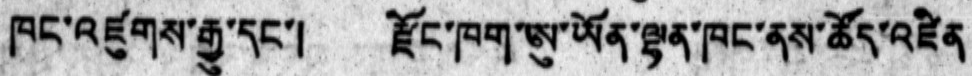ཁང་འཛུགས་རྒྱུ་དང་། རྫོང་ཁག་ཨུ་ཡོན་ལྷན་ཁང་ནས་ཚོད་འཛིན
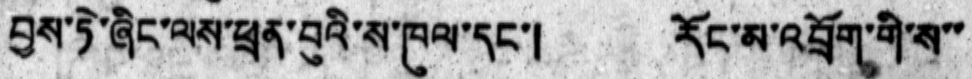བྱས་ཏེ་ཞིང་ལས་ཕྲན་བུའི་ས་ཁུལ་དང་། རོང་མ་འབྲོག་གི་ས་་
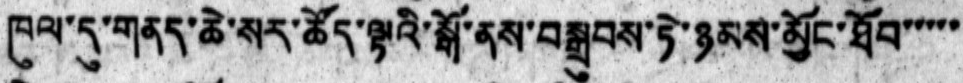ཁུལ་དུ་གནད་ཆེ་སར་ཚོད་ལྟའི་སྒོ་ནས་བསྒྲུབས་ཏེ་ཉམས་མྱོང་ཐོབ་་་་་
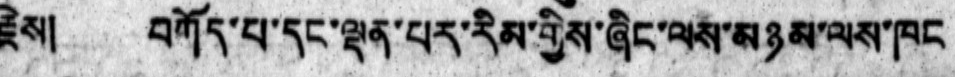རྗེས། བཀོད་པ་དང་ལྡན་པར་རིམ་གྱིས་ཞིང་ལས་མཉམ་ལས་ཁང
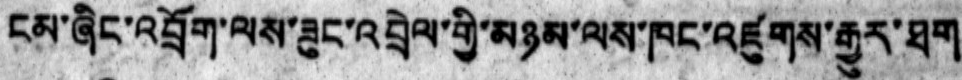ངམ་ཞིང་འབྲོག་ལས་ཟུང་འབྲེལ་གྱི་མཉམ་ལས་ཁང་འཛུགས་རྒྱུར་ཐག
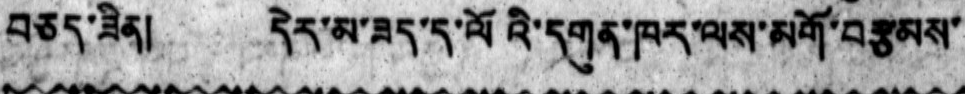བཅད་ཟིན།   དེར་མ་ཟད་ད་ལོའི་དགུན་ཁར་ལས་མགོ་བརྩམས་
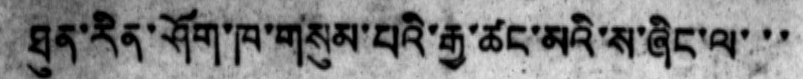ཐུན་རིན་ཤོག་ཁ་གསུམ་པའི་རྒྱུ་ཚང་མའི་ས་ཞིང་ལ་་་
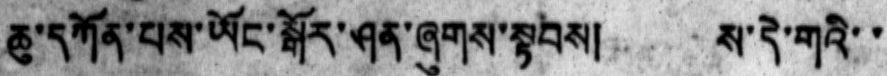ཆུ་དཀོན་པས་ཡོང་སྒོར་ཤན་ཞུགས་སྟབས། ས་དེ་གའི་་
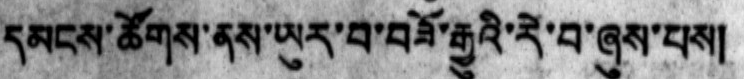དམངས་ཚོགས་ནས་ཡུར་བ་བཟོ་རྒྱུའི་རེ་བ་ཞུས་པས།
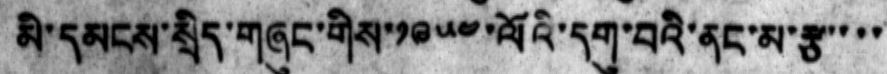མི་དམངས་སྲིད་གཞུང་གིས་༡༩༥༤་ལོའི་དགུ་བའི་ནང་མ་རྩ་་་་
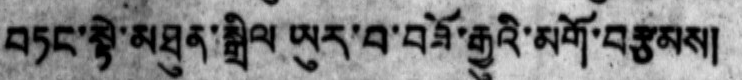བཏང་སྟེ་མཐུན་སྒྲིལ་ཡུར་བ་བཟོ་རྒྱུའི་མགོ་བརྩམས།
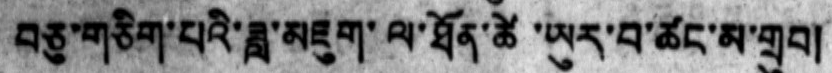བཅུ་གཅིག་པའི་ཟླ་མཇུག་ལ་ཐོན་ཚེ་ཡུར་བ་ཚང་མ་གྲུབ།
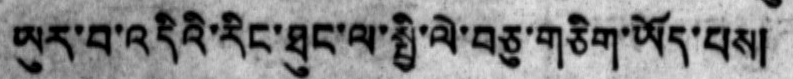ཡུར་བ་འདིའི་རིང་ཐུང་ལ་སྤྱི་ལེ་བཅུ་གཅིག་ཡོད་པས།
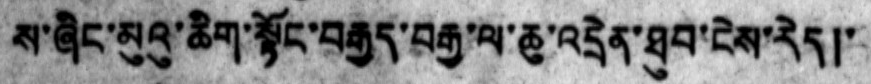ས་ཞིང་མུའུ་ཆིག་སྟོང་བརྒྱད་བརྒྱ་ལ་ཆུ་འདྲེན་ཐུབ་ངེས་རེད།་
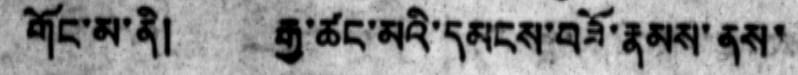གོང་མ་ནི། རྒྱ་ཚང་མའི་དམངས་བཟོ་རྣམས་ནས་
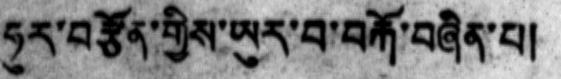ཧུར་བརྩོན་གྱིས་ཡུར་བ་བརྐོ་བཞིན་པ།
